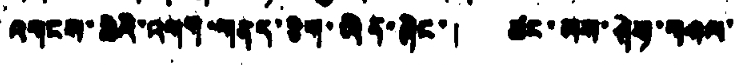འགངས་ཆེའི་ལགག་གནད་ཅིག་ཡིན་ཞིང་། ཚང་མས་ཤེས་གསལ་
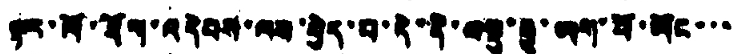ལྟར་ལོ་ཐོག་འདེབས་ལས་བྱེད་པ་དེ་ནི་བསྡུ་རྒྱུ་ཡག་པོ་ཡོང་་་
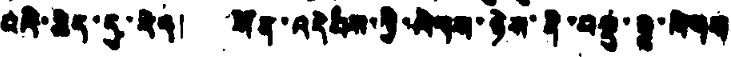བའི་ཆེད་དུ་རེད། སོན་འདེབས་ཀྱི་ལེགས་ཉེས་ནི་བསྡུ་རྒྱུ་ལེགས
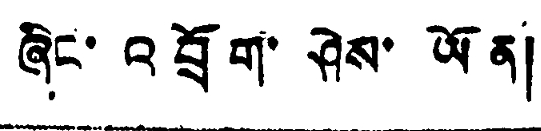ཞིང་ འབྲོག་ ཤེས་ ཡོན།
